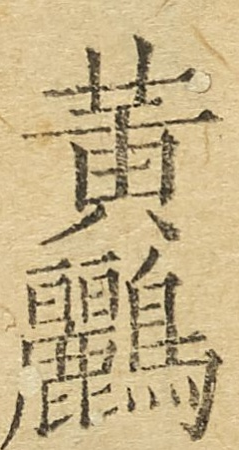黃鸝
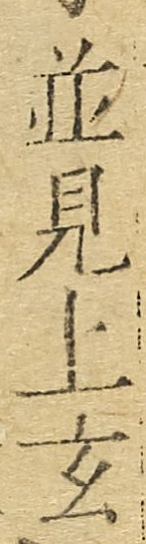並見上玄
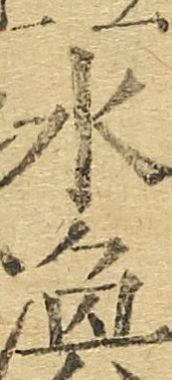冰渙
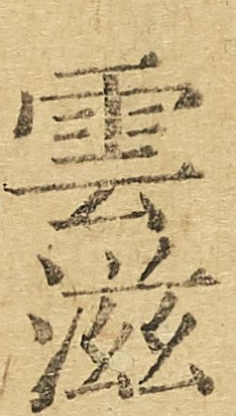雪滋
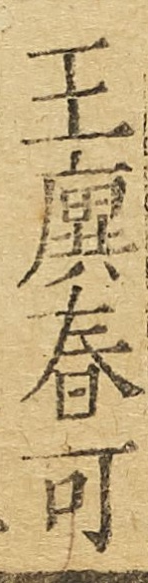王廙春可
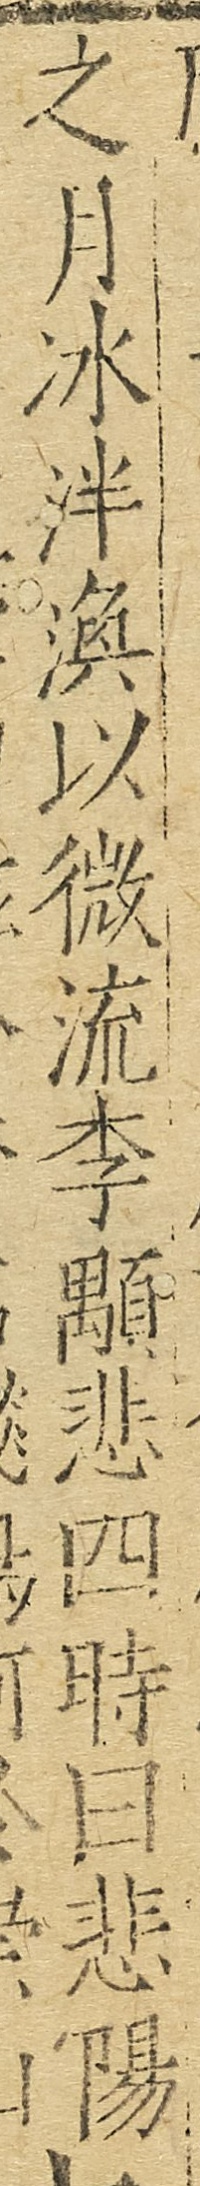之月冰泮渙以微流李顒悲四時曰悲陽
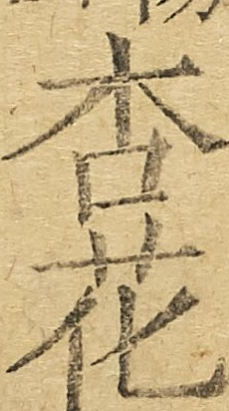杏花
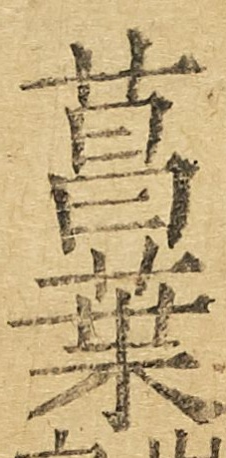菖葉
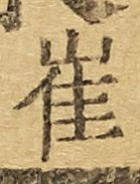崔
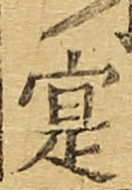寔
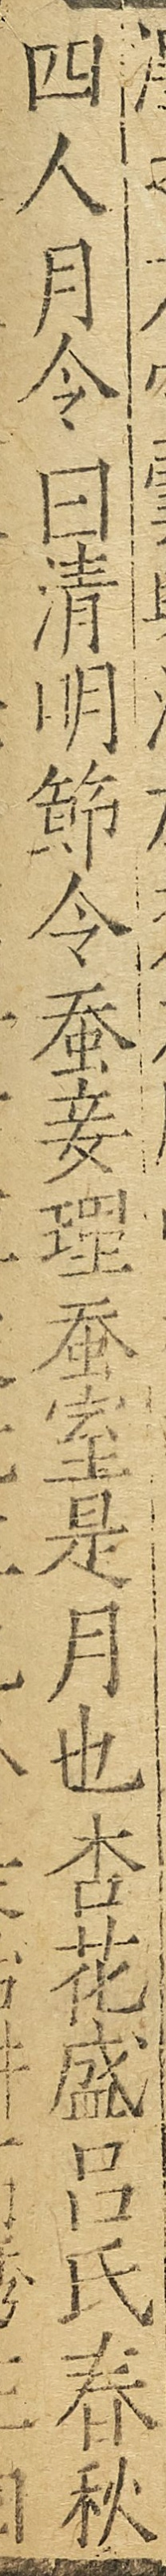四人月令曰清明節令蠶妾理蠶室是月也杏花盛呂氏春秋
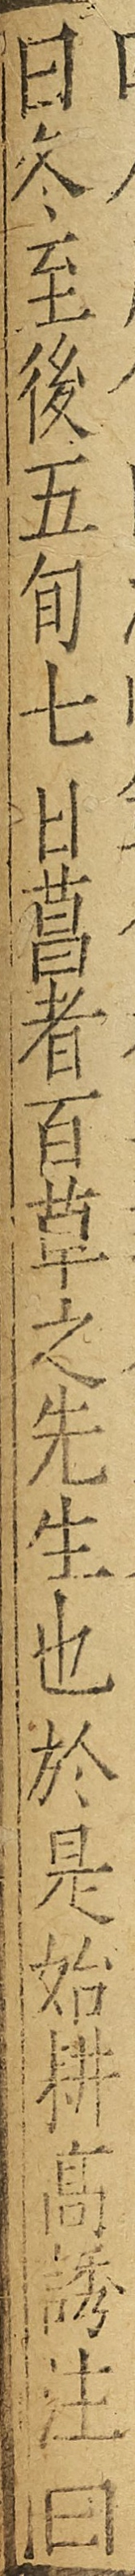曰冬至後五旬七日菖者百草之先生也於是始耕高誘注曰
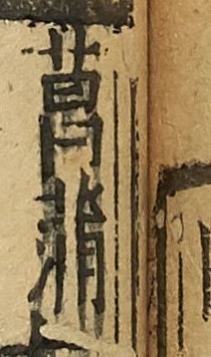菖浦
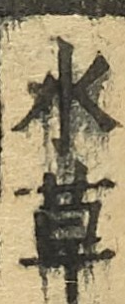水草
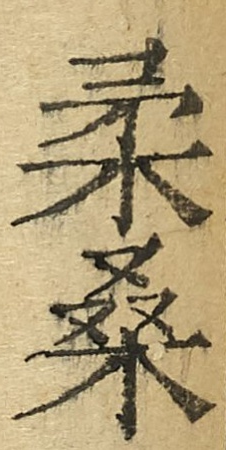柔桑
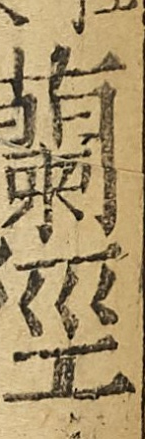蘭徑
